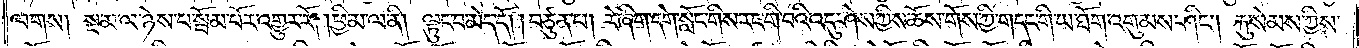ལགས། སྔ་མ་ལ་ཉེས་པ་སྦོམ་པོར་འགྱུར་རོ། །ཕྱི་མ་ལ་ནི། ལྟུང་བ་མེད་དོ། །བཙུན་པ། རེ་ཞིག་དགེ་སློང་གིས་རང་གི་བའི་འདུ་ཤེས་ཀྱིས་ཆོས་གོས་ཀྱི་གདང་གི་ཡ་ཐོག་འགུམས་ཤིང༌། རྐུ་སེམས་ཀྱིས་
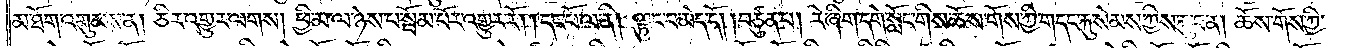མ་ཐོག་འགུམས་ན། ཅིར་འགྱུར་ལགས། ཕྱི་མ་ལ་ཉེས་པ་སྦོམ་པོར་འགྱུར་རོ། །དང་པོ་ལ་ནི། ལྟུང་བ་མེད་དོ། །བཙུན་པ། རེ་ཞིག་དགེ་སློང་གིས་ཆོས་གོས་ཀྱི་གདང་རྐུ་སེམས་ཀྱིས་རྐུ་བ་ན། ཆོས་གོས་ཀྱི་
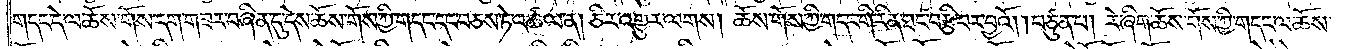གདང་དེ་ལ་ཆོས་གོས་དག་གཟར་བཞིན་དུ་དེས་ཆོས་གོས་ཀྱི་གདང་དང་བཅས་ཏེ་འཚལ་ན། ཅིར་འགྱུར་ལགས། ཆོས་གོས་ཀྱི་གདང་གི་རིན་ཐང་བརྩི་བར་བྱའོ། །བཙུན་པ། རེ་ཞིག་ཆོས་གོས་ཀྱི་གདང་ལ་ཆོས་
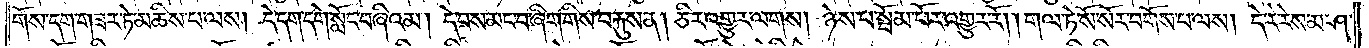གོས་དག་གཟར་ཏེ་མཆིས་པ་ལས། དེ་དག་དགེ་སློང་བཞིའམ། དེ་བས་མང་བ་ཞིག་གིས་བརྐུས་ན། ཅིར་འགྱུར་ལགས། ཉེས་པ་སྦོམ་པོར་འགྱུར་རོ། །གལ་ཏེ་སོ་སོར་བགོས་པ་ལས། དེ་རེ་རེས་མ་ཤ་
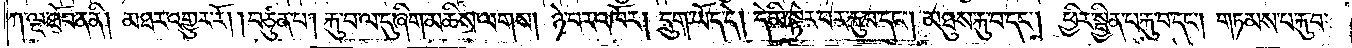ཀ་ལྔ་ཐོབ་ན་ནི། མཐར་འགྱུར་རོ། །བཙུན་པ། རྐུ་བ་ལ་དུ་ཞིག་མཆིས་ལགས། ཉེ་བར་འཁོར། དྲུག་ཡོད་དེ། དེ་མི་སྟེར་བར་རྐུ་བ་དང༌། མཐུས་རྐུ་བ་དང༌། ཕྱིར་སྦྱིན་པ་རྐུ་བ་དང༌། གཏམས་པ་རྐུ་བ་
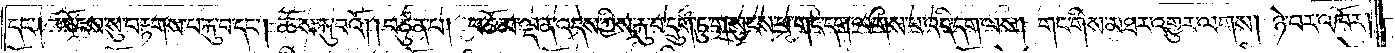དང༌། ཡོངས་སུ་བརྟགས་པ་རྐུ་བ་དང༌། ཆོས་རྐུ་བའོ། །བཙུན་པ། བཅོམ་ལྡན་འདས་ཀྱིས་རྐུ་བ་དྲུག་ཏུ་གསུངས་པ་གང་དག་ལགས་པ་འདི་དག་ལས། གང་གིས་མཐར་འགྱུར་ལགས། ཉེ་བར་འཁོར་
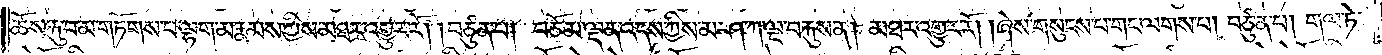ཆོས་རྐུ་བ་མ་གཏོགས་པ་ལྷག་མ་རྣམས་ཀྱིས་མཐར་འགྱུར་རོ། །བཙུན་པ། བཅོམ་ལྡན་འདས་ཀྱིས་མ་ཤ་ཀ་ལྔ་བརྐུས་ན། མཐར་འགྱུར་རོ། །ཞེས་གསུངས་པ་གང་ལགས་པ། བཙུན་པ། གལ་ཏེ་
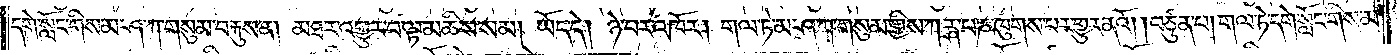དགེ་སློང་གིས་མ་ཤ་ཀ་གསུམ་བརྐུས་ན། མཐར་འགྱུར་བ་ལྟ་མཆིས་སམ། ཡོད་དེ། ཉེ་བར་འཁོར། གལ་ཏེ་མ་ཤ་ཀ་གསུམ་གྱིས་ཀརྴ་པ་ཎ་ཁུགས་པར་འགྱུར་ནའོ། །བཙུན་པ། གལ་ཏེ་དགེ་སློང་གིས་མ་
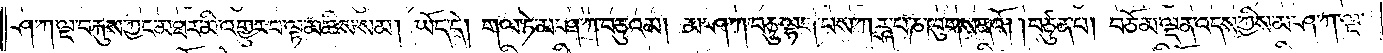ཤ་ཀ་ལྔ་བརྐུས་ཀྱང་མཐར་མི་འགྱུར་བ་ལྟ་མཆིས་སམ། ཡོད་དེ། གལ་ཏེ་མ་ཤ་ཀ་བཅུའམ། མ་ཤ་ཀ་བཅུ་ལྷག་པས་ཀཪྴ་པ་ཎ་ཁུགས་ནའོ། །བཙུན་པ། བཅོམ་ལྡན་འདས་ཀྱིས་མ་ཤ་ཀ་ལྔ་
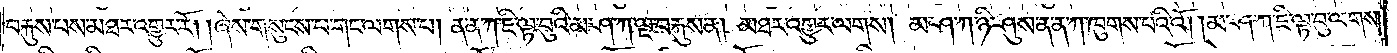བརྐུས་པས་མཐར་འགྱུར་རོ། །ཞེས་གསུངས་པ་གང་ལགས་པ། ན་ན་ཀ་ཇི་ལྟ་བུའི་མ་ཤ་ཀ་ལྔ་བརྐུས་ན། མཐར་འགྱུར་ལགས། མ་ཤ་ཀ་ཉི་ཤུས་ན་ན་ཀ་ཁུགས་པའི་འོ། །མ་ཤ་ཀ་ཇི་ལྟ་བུ་ལགས་
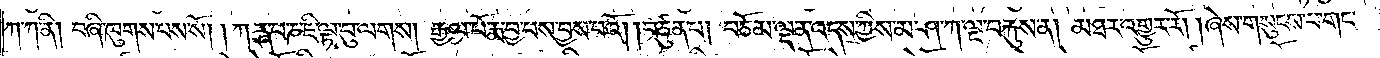ཀ་ཀ་ནི། བཞི་ཁུགས་པས་སོ། །ཀཪྴ་པ་ཎ་ཇི་ལྟ་བུ་ལགས། རྒྱལ་པོ་རྨ་བྱ་པས་བྱས་པའོ། །བཙུན་པ། བཅོམ་ལྡན་འདས་ཀྱིས་མ་ཤ་ཀ་ལྔ་བརྐུས་ན། མཐར་འགྱུར་རོ། །ཞེས་གསུངས་པ་གང་
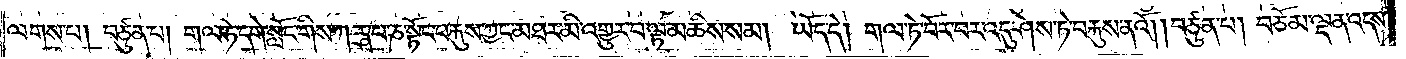ལགས་པ། བཙུན་པ། གལ་ཏེ་དགེ་སློང་གིས་ཀཪྴ་པ་ཎ་སྟོང་བརྐུས་ཀྱང་མཐར་མི་འགྱུར་བ་ལྟ་མཆིས་སམ། ཡོད་དེ། གལ་ཏེ་བོར་བར་འདུ་ཤེས་ཏེ་བརྐུས་ནའོ། །བཙུན་པ། བཅོམ་ལྡན་འདས་
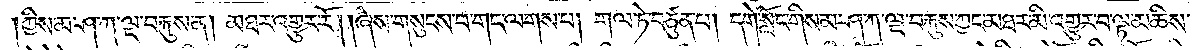།ཀྱིས་མ་ཤ་ཀ་ལྔ་བརྐུས་ན། མཐར་འགྱུར་རོ། །ཞེས་གསུངས་པ་གང་ལགས་པ། གལ་ཏེ་བཙུན་པ། དགེ་སློང་གིས་མ་ཤ་ཀ་ལྔ་བརྐུས་ཀྱང་མཐར་མི་འགྱུར་བ་ལྟ་མཆིས་
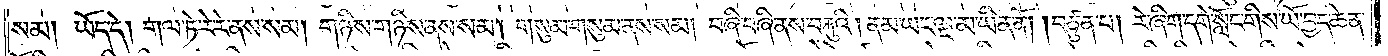སམ། ཡོད་དེ། གལ་ཏེ་རེ་རེ་ནས་སམ། གཉིས་གཉིས་ནས་སམ། གསུམ་གསུམ་ནས་སམ། བཞི་བཞི་ནས་བརྐུའི། ནམ་ཡང་ལྔ་མ་ཡིན་ནོ། །བཙུན་པ། རེ་ཞིག་དགེ་སློང་གིས་ཡོ་བྱད་ཆེན་
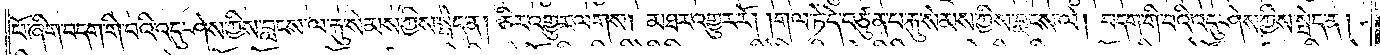པོ་ཞིག་བདག་གི་བའི་འདུ་ཤེས་ཀྱིས་བླངས་ལ་རྐུ་སེམས་ཀྱིས་སྦེད་ན། ཅིར་འགྱུར་ལགས། མཐར་འགྱུར་རོ། །གལ་ཏེ་དེ་བཙུན་པ་རྐུ་སེམས་ཀྱིས་བླངས་ལ། བདག་གི་བའི་འདུ་ཤེས་ཀྱིས་སྤེད་ན།
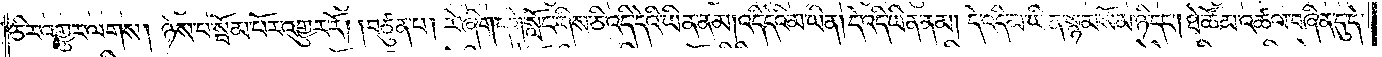ཅིར་འགྱུར་ལགས། ཉེས་པ་སྦོམ་པོར་འགྱུར་རོ། །བཙུན་པ། རེ་ཞིག་དགེ་སློང་གིས་ཅི་འདི་དེའི་ཡིན་ནམ། འདི་དེའི་མ་ཡིན། དེ་འདི་ཡིན་ནམ། དེ་འདི་མ་ཡིན་སྙམ་སོམ་ཉི་དང༌། ཐེ་ཚོམ་འཚལ་བཞིན་དུ་དེ་
